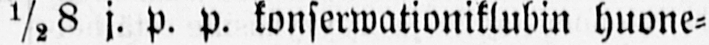½ 8 j. p. p. konserwationiklubin huone-
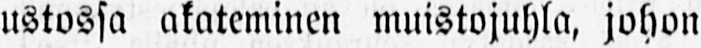ustossa akateminen muistojuhla, johon
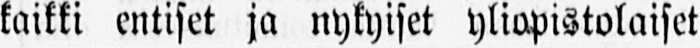kaikki entiset ja nykyiset yliopistolaiset
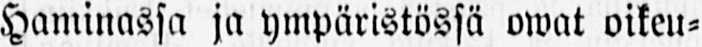Haminassa ja ympäristössä owat oikeu-
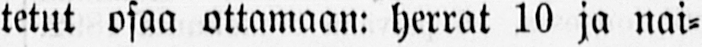tetut osaa ottamaan: herrat 10 ja nai-
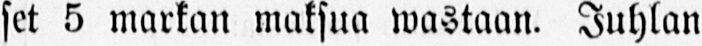set 5 markan maksua wastaan. Juhlan
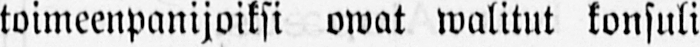toimeenpanijoiksi owat walitut konsuli
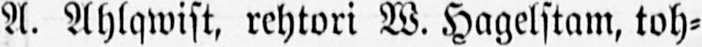A. Ahlqwist, rehtori W. Hagelstam, toh-
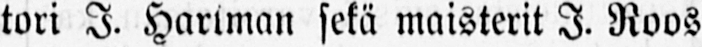tori I. Hartman sekä maisterit I. Roos
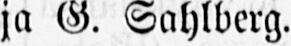ja G. Sahlberg.
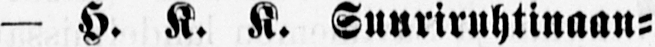— H. K. K. Suuriruhtinaan-
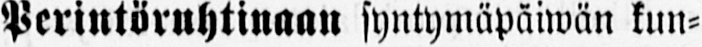Perintöruhtinaan syntymäpäiwän kun-
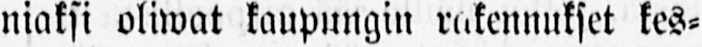niaksi oliwat kaupungin rakennukset kes-
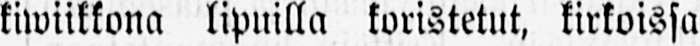kiwiikkona lipuilla koristetut, kirkoissa
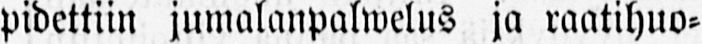pidettiin jumalanpalwelus ja raatihuo-
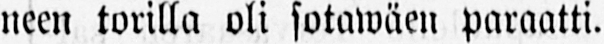neen torilla oli sotawäen paraatti.
